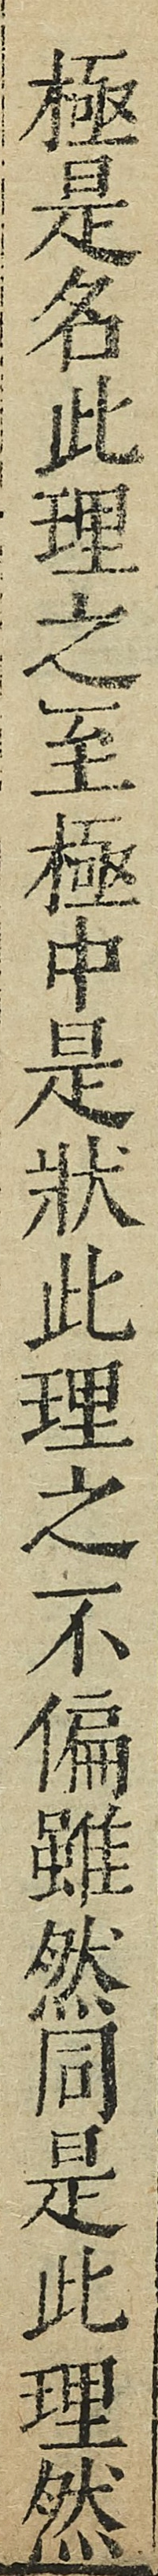極是各此理之至極中是狀此理之不偏雖然同是此理然
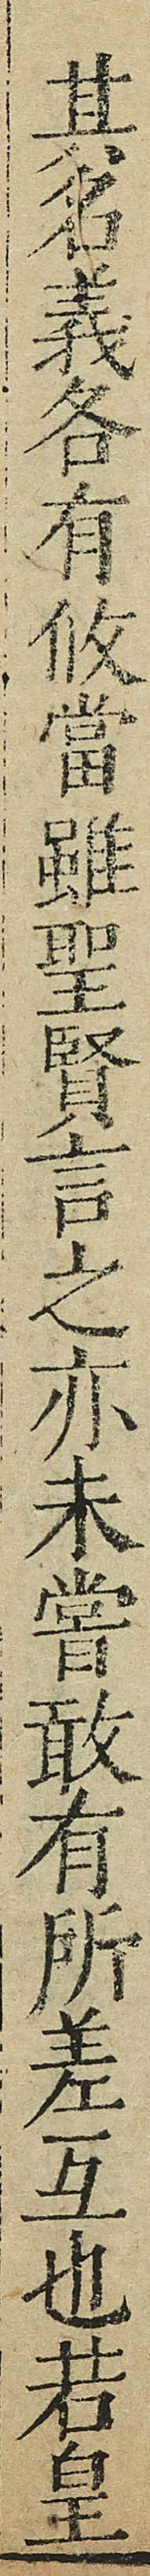其名義各有攸當難聖賢言之亦未嘗敢有所差互也若皇
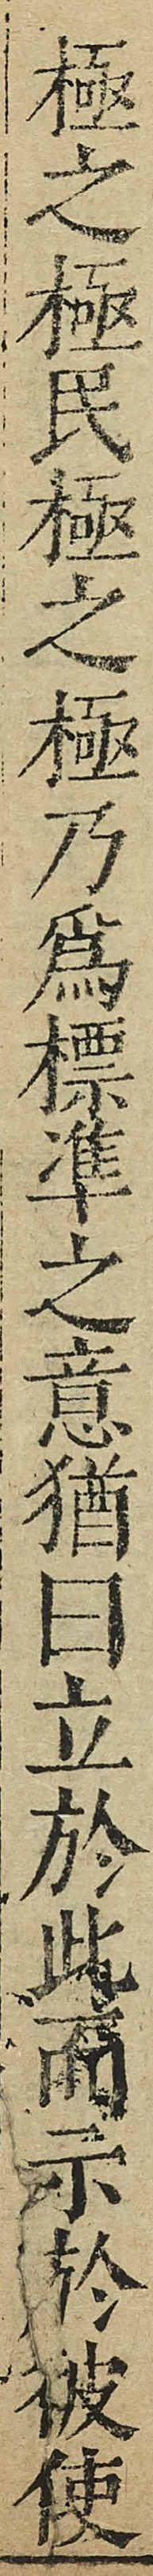極之極民極之極乃爲標准之意猶曰立於此而示於彼使
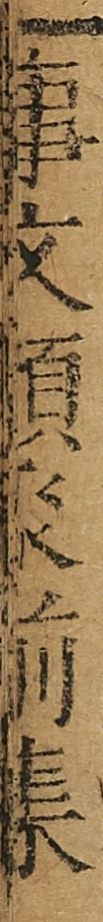事文類聚前集
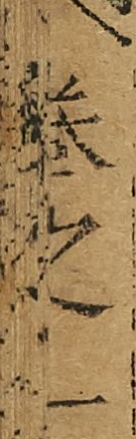卷之一
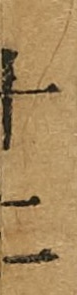十七
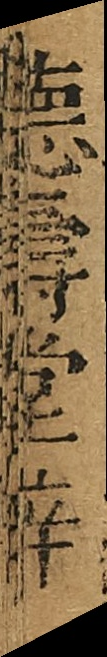德壽堂梓
